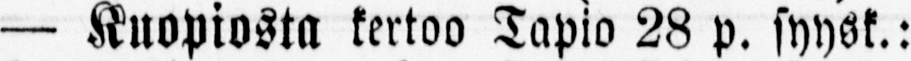— Kuopiosta kertoo Tapio 28 p. syysk.:
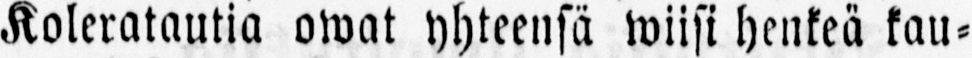Koleratautia owat yhteensä wiisi henkeä kau-
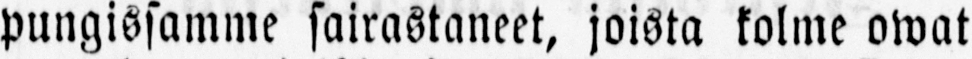pungissamme sairastaneet, joista kolme owat
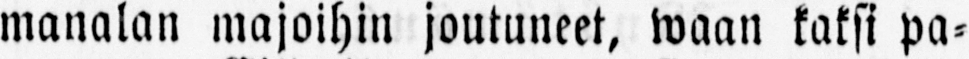manalan majoihin joutuneet, waan kaksi pa-
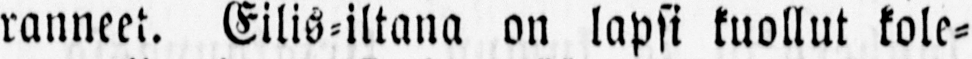ranneet. Eilis-iltana on lapsi kuollut kole-
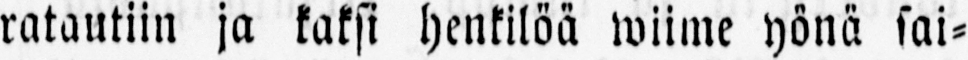ratautiin ja kaksi henkilöä wiime yönä sai-
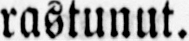rastunut.
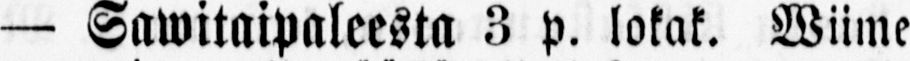— Sawitaipaleesta 3 p. lokak. Wiime
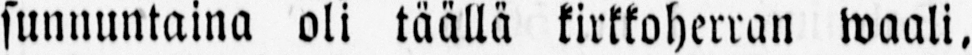sunnuntaina oli täällä kirkkoherran waali,
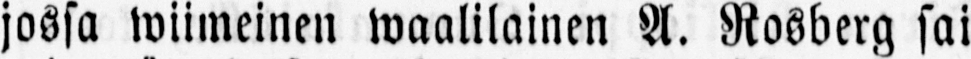jossa wiimeinen waalilainen A. Rosberg sai
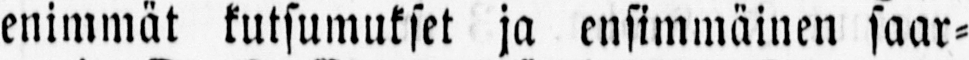enimmät kutsumukset ja ensimmäinen saar-
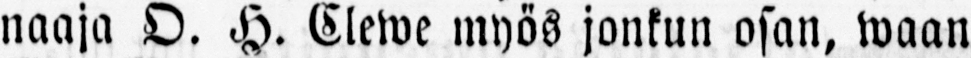naaja O. H. Clewe myös jonkun osan, waan
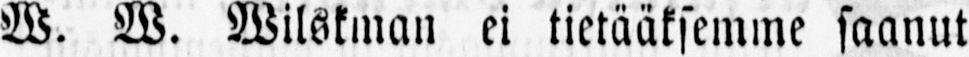W. W. Wilskman ei tietääksemme saanut
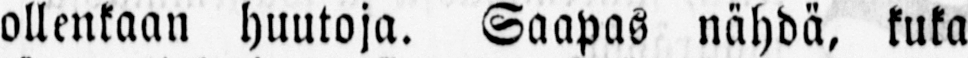ollenkaan huutoja. Saapas nähdä, kuka
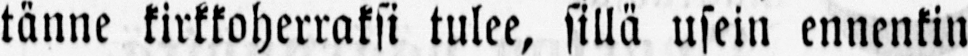tänne kirkkoherraksi tulee, sillä usein ennenkin
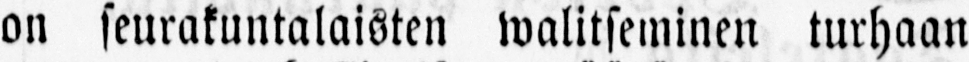on seurakuntalaisten walitseminen turhaan
